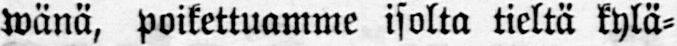wänä, poikettuamme isolta tieltä kylä-
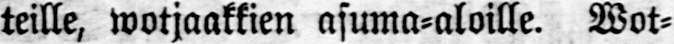teille, wotjaakkien asuma-aloille. Wot-
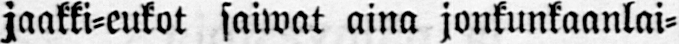jaakki-eukot saiwat aina jonkunkaanlai-
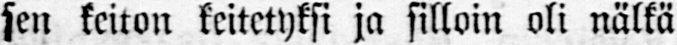sen keiton keitetyksi ja silloin oli nälkä
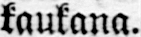kaukana.
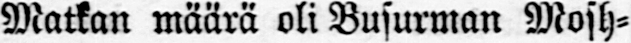Matkan määrä oli Busurman Mosh-
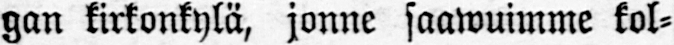gan kirkonkylä, jonne saawuimme kol-
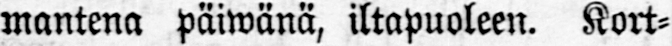mantena päiwänä, iltapuoleen. Kort-
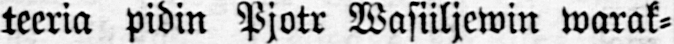teeria pidin Pjotr Wasiiljewin warak-
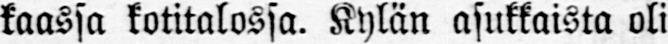kaassa kotitalossa. Kylän asukkaista oli
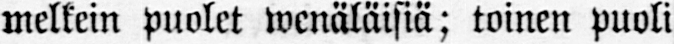melkein puolet wenäläisiä; toinen puoli
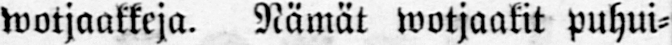wotjaakkeja. Nämät wotjaakit puhui-
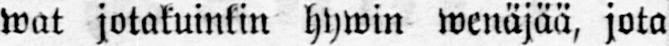wat jotakuinkin hywin wenäjää, jota
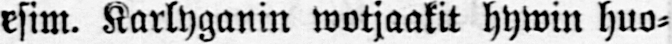esim. Karlyganin wotjaakit hywin huo-
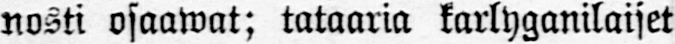nosti osaawat; tataaria karlyganilaiset
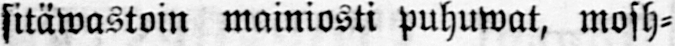sitäwastoin mainiosti puhuwat, mosh-
